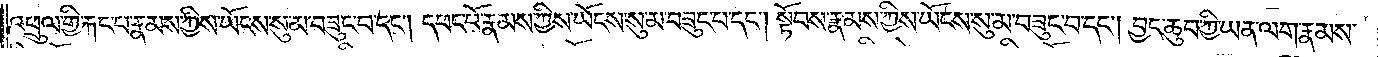འཕྲུལ་གྱི་རྐང་པ་རྣམས་ཀྱིས་ཡོངས་སུ་མ་བཟུང་བ་དང༌། དབང་པོ་རྣམས་ཀྱིས་ཡོངས་སུ་མ་བཟུང་བ་དང༌། སྟོབས་རྣམས་ཀྱིས་ཡོངས་སུ་མ་བཟུང་བ་དང༌། བྱང་ཆུབ་ཀྱི་ཡན་ལག་རྣམས་
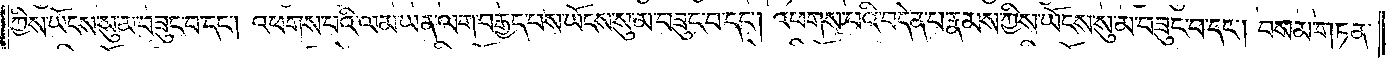ཀྱིས་ཡོངས་སུ་མ་བཟུང་བ་དང༌། འཕགས་པའི་ལམ་ཡན་ལག་བརྒྱད་པས་ཡོངས་སུ་མ་བཟུང་བ་དང༌། འཕགས་པའི་བདེན་པ་རྣམས་ཀྱིས་ཡོངས་སུ་མ་བཟུང་བ་དང༌། བསམ་གཏན་
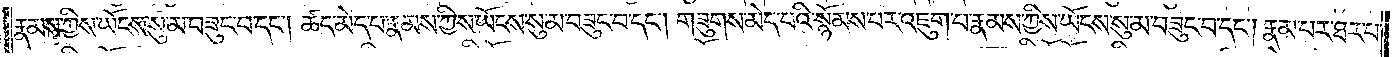རྣམས་ཀྱིས་ཡོངས་སུ་མ་བཟུང་བ་དང༌། ཚད་མེད་པ་རྣམས་ཀྱིས་ཡོངས་སུ་མ་བཟུང་བ་དང༌། གཟུགས་མེད་པའི་སྙོམས་པར་འཇུག་པ་རྣམས་ཀྱིས་ཡོངས་སུ་མ་བཟུང་བ་དང༌། རྣམ་པར་ཐར་པ་
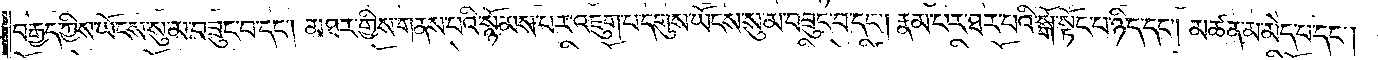བརྒྱད་ཀྱིས་ཡོངས་སུ་མ་བཟུང་བ་དང༌། མཐར་གྱིས་གནས་པའི་སྙོམས་པར་འཇུག་པ་དགུས་ཡོངས་སུ་མ་བཟུང་བ་དང༌། རྣམ་པར་ཐར་པའི་སྒོ་སྟོང་པ་ཉིད་དང༌། མཚན་མ་མེད་པ་དང༌།
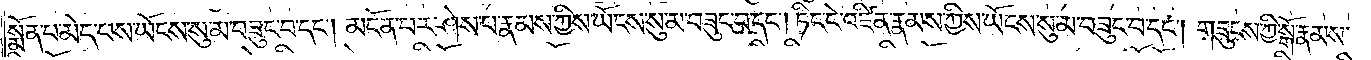སྨོན་པ་མེད་པས་ཡོངས་སུ་མ་བཟུང་བ་དང༌། མངོན་པར་ཤེས་པ་རྣམས་ཀྱིས་ཡོངས་སུ་མ་བཟུང་བ་དང༌། ཏིང་ངེ་འཛིན་རྣམས་ཀྱིས་ཡོངས་སུ་མ་བཟུང་བ་དང༌། གཟུངས་ཀྱི་སྒོ་རྣམས་
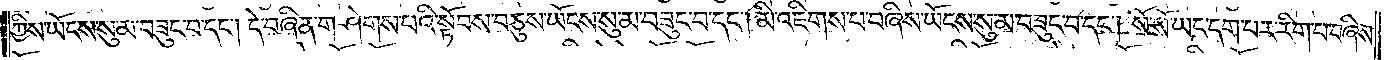ཀྱིས་ཡོངས་སུ་མ་བཟུང་བ་དང༌། དེ་བཞིན་གཤེགས་པའི་སྟོབས་བཅུས་ཡོངས་སུ་མ་བཟུང་བ་དང༌། མི་འཇིགས་པ་བཞིས་ཡོངས་སུ་མ་བཟུང་བ་དང༌། སོ་སོ་ཡང་དག་པར་རིག་པ་བཞིས་
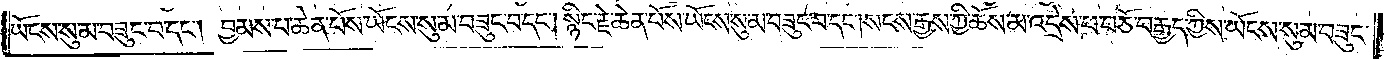ཡོངས་སུ་མ་བཟུང་བ་དང༌། བྱམས་པ་ཆེན་པོས་ཡོངས་སུ་མ་བཟུང་བ་དང༌། སྙིང་རྗེ་ཆེན་པོས་ཡོངས་སུ་མ་བཟུང་བ་དང༌། སངས་རྒྱས་ཀྱི་ཆོས་མ་འདྲེས་པ་བཅོ་བརྒྱད་ཀྱིས་ཡོངས་སུ་མ་བཟུང་
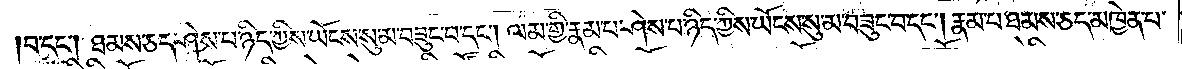བ་དང༌། ཐམས་ཅད་ཤེས་པ་ཉིད་ཀྱིས་ཡོངས་སུ་མ་བཟུང་བ་དང༌། ལམ་གྱི་རྣམ་པ་ཤེས་པ་ཉིད་ཀྱིས་ཡོངས་སུ་མ་བཟུང་བ་དང༌། རྣམ་པ་ཐམས་ཅད་མཁྱེན་པ་
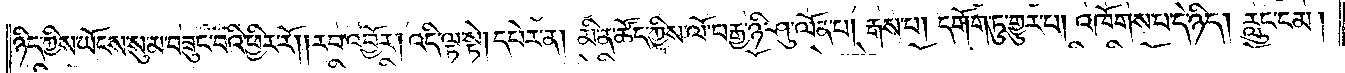ཉིད་ཀྱིས་ཡོངས་སུ་མ་བཟུང་བའི་ཕྱིར་རོ། །རབ་འབྱོར། འདི་ལྟ་སྟེ། དཔེར་ན། མི་ན་ཚོད་ཀྱིས་ལོ་བརྒྱ་ཉི་ཤུ་ལོན་པ། རྒས་པ། དགོག་ཏུ་གྱུར་པ། འཁོགས་པ་དེ་ཉིད། རླུང་ངམ།
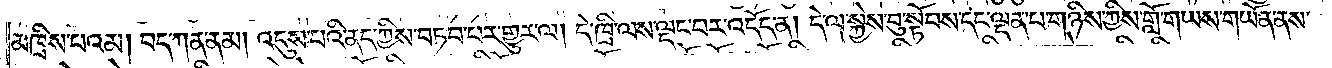མཁྲིས་པའམ། བད་ཀན་ནམ། འདུས་པའི་ནད་ཀྱིས་བཏབ་པར་གྱུར་ལ། དེ་ཁྲི་ལས་ལྡང་བར་འདོད་ན། དེ་ལ་སྐྱེས་བུ་སྟོབས་དང་ལྡན་པ་གཉིས་ཀྱིས་བློ་གཡས་གཡོན་ནས་
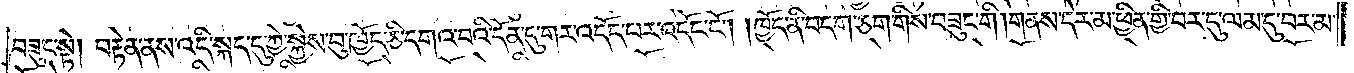བཟུང་སྟེ། བརྟེན་ནས་འདི་སྐད་དུ་ཀྱི་སྐྱེས་བུ་ཁྱོད་ཅི་དགའ་བའི་དོན་དུ་གར་འདོད་པར་འདོད་ངོ༌། །ཁྱོད་ནི་བདག་ཅག་གིས་བཟུང་གི །གནས་དེར་མ་ཕྱིན་གྱི་བར་དུ་ལམ་དུ་བར་མ་
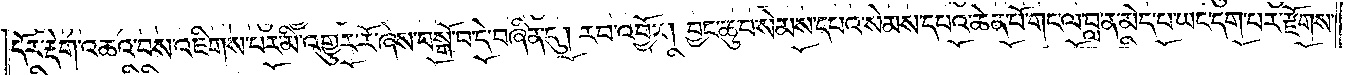དོར་རྡེག་འཆའ་བས་འཇིགས་པར་མི་འགྱུར་རོ་ཞེས་བསྒོ་བ་དེ་བཞིན་དུ། རབ་འབྱོར། བྱང་ཆུབ་སེམས་དཔའ་སེམས་དཔའ་ཆེན་པོ་གང་ལ་བླ་ན་མེད་པ་ཡང་དག་པར་རྫོགས་
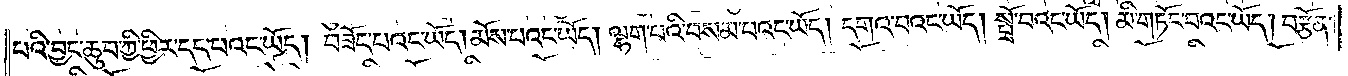པའི་བྱང་ཆུབ་ཀྱི་ཕྱིར་དད་པའང་ཡོད། བཟོད་པའང་ཡོད། མོས་པའང་ཡོད། ལྷག་པའི་བསམ་པའང་ཡོད། དགའ་བའང་ཡོད། སྤྲོ་བའང་ཡོད། མི་གཏོང་བའང་ཡོད། བརྩོན་
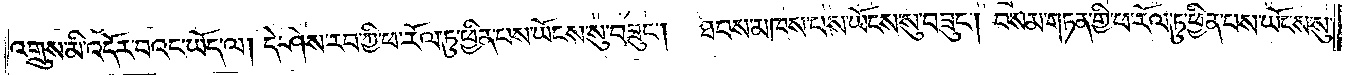འགྲུས་མི་འདོར་བའང་ཡོད་ལ། དེ་ཤེས་རབ་ཀྱི་ཕ་རོལ་ཏུ་ཕྱིན་པས་ཡོངས་སུ་བཟུང༌། ཐབས་མཁས་པས་ཡོངས་སུ་བཟུང༌། བསམ་གཏན་གྱི་ཕ་རོལ་ཏུ་ཕྱིན་པས་ཡོངས་སུ་
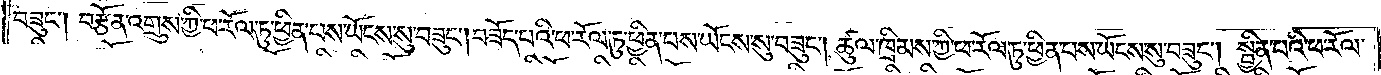བཟུང༌། བརྩོན་འགྲུས་ཀྱི་ཕ་རོལ་ཏུ་ཕྱིན་པས་ཡོངས་སུ་བཟུང༌། བཟོད་པའི་ཕ་རོལ་ཏུ་ཕྱིན་པས་ཡོངས་སུ་བཟུང༌།ཚུལ་ཁྲིམས་ཀྱི་ཕ་རོལ་ཏུ་ཕྱིན་པས་ཡོངས་སུ་བཟུང༌། སྦྱིན་པའི་ཕ་རོལ་
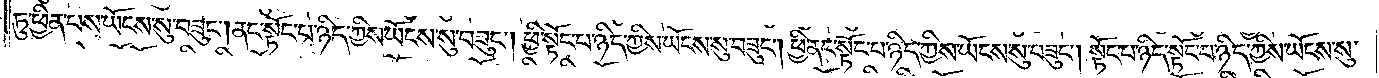ཏུ་ཕྱིན་པས་ཡོངས་སུ་བཟུང༌། ནང་སྟོང་པ་ཉིད་ཀྱིས་ཡོངས་སུ་བཟུང༌། ཕྱི་སྟོང་པ་ཉིད་ཀྱིས་ཡོངས་སུ་བཟུང༌། ཕྱི་ནང་སྟོང་པ་ཉིད་ཀྱིས་ཡོངས་སུ་བཟུང༌། སྟོང་པ་ཉིད་སྟོང་པ་ཉིད་ཀྱིས་ཡོངས་སུ་
